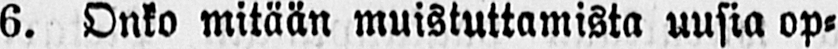6. Onko mitään muistuttamista uusia op-
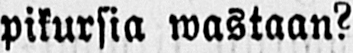pikursia wastaan?
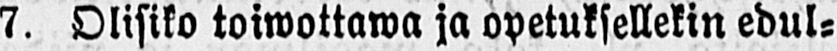7. Olisiko toiwottawa ja opetuksellekin edul-
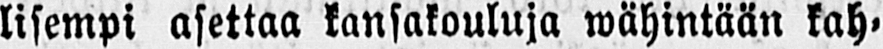lisempi asettaa kansakouluja wähintään kah-
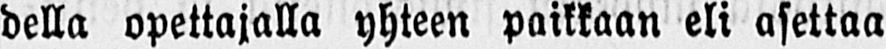della opettajalla yhteen paikkaan eli asettaa
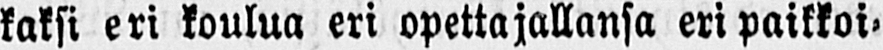kaksi eri koulua eri opettajallansa eri paikkoi-
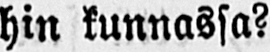hin kunnassa?
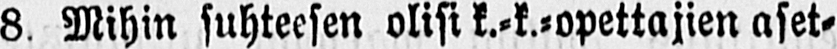8 Mihin suhteesen olisi k.-k.-opettajien aset-
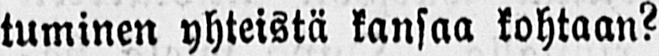tuminen yhteistä kansaa kohtaan?
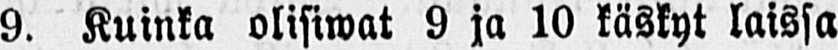9. Kuinka olisiwat 9 ja 10 käskyt laissa
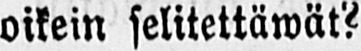oikein selitettäwät?
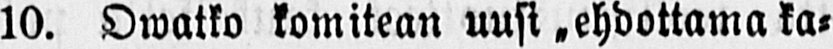10. Owatko komitean uusi ˶ehdottama ka-
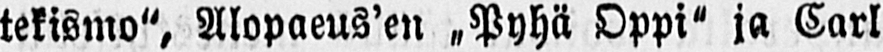tekismo", Alopaeus'en ˶Pyhä Oppi" ja Carl
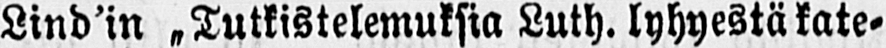Lind'in ˶Tutkistelemuksia Luth. lyhyestä kate-
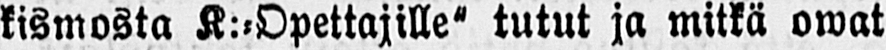kismosta K:-Opettajille" tutut ja mitkä owat
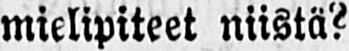mielipiteet niistä?
